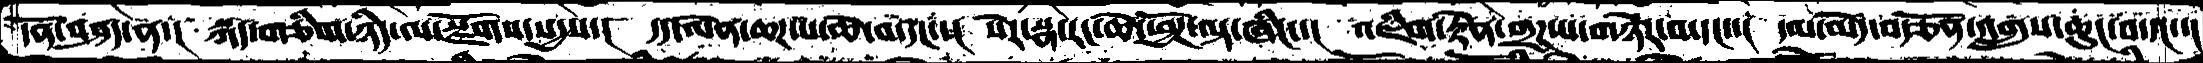དོན་བཤད་ན་།  སྐད་གཅིག་ཉིད་ལ་སྫོགས་སདྱས་།  དད་ལེན་ཆཌ་པ་ཆེ་བ་དང་་།  སེར་སྣ་རང་ཆེ་ཕྱོཌ་ལྟ་ཞིང་་།  འཇིག་རྟེན་གྲཌ་པ་གཉེར་བ་དང་་།  དམ་མེད་བརྩོན་འགྲུས་ཆུང་བ་དང་་།
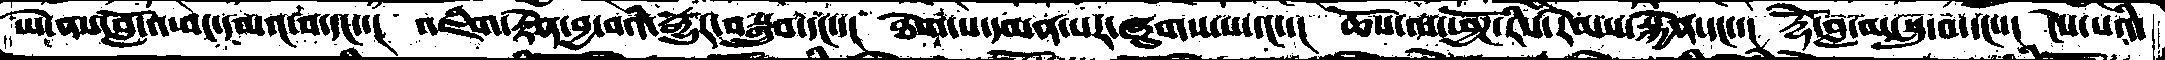ཡེ་ནས་བློ་འཕང་དམའ་བ་དང་་།  འཇིག་རྟེན་བྱ་བའི་རྒྱུར་བསྒྲུབ་དང་་།  ཐེག་པ་དམན་པར་ཞུགས་པ་དང་་།  ཆོས་ལ་ཕྱོཌ་རིས་རེམས་སྐྱེན་དང་་།  རྡོེ་བླ་མ་སླུ་བ་དང་་།  ངེས་པའི་
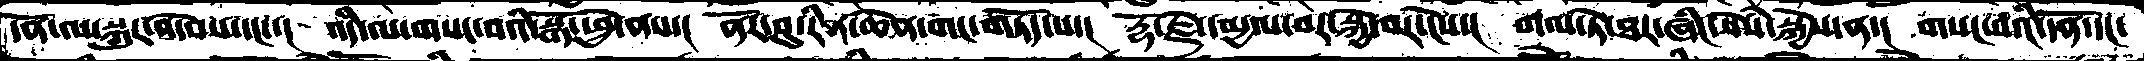དོན་ལ་སྐུར་འདེབས་དང་་།  འདི་ལ་གསང་བའི་སྒོ་ཕྱེ་ནས་།  ནོར་བུ་རིན་ཆེན་གང་གཏོད་པ་།  རྡོ་རྗེ་དམྱལ་བར་སྐྱེ་བར་ངེས་།  གལ་ཏེ་ཐར་ཞིང་སེཾས་སྐྱེས་ན་།  གསང་བའི་དོན་དང་
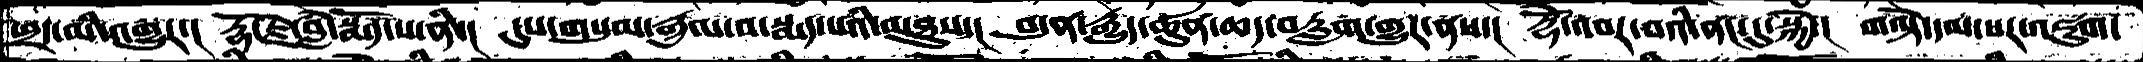ཕྲད་མི་འགྱུར་།  རྡོ་རྗེ་བླཾ་སྨོད་པ་ནི་།  དུས་གསུམ་རྒྱལ་བ་སྨད་པའི་མཐུས་།  བདུན་རྒྱུད་ཚུན་ཆད་བརླག་གྱུར་ནས་།  རྡོེ་འབར་བའི་ནང་དུ་སྐྱེ་།  གལྟེ་དམ་པར་འཇུག་
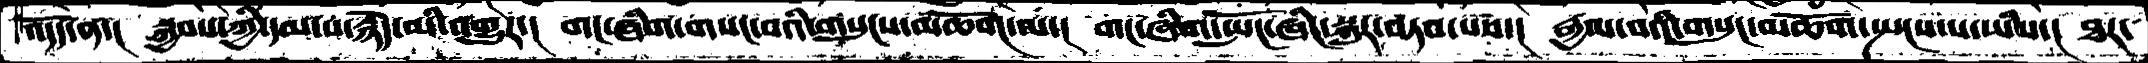འདོད་ན་།  སྐྱབས་ཀྱི་དམ་པ་རྙེད་མི་འགྱུར་།  གང་ཞིག་གསང་བའི་གསུངས་མཆོག་ལ་།  གང་ཞིག་སྤོང་ཞིང་སྐུར་བཏབ་པས་།  རྒྱལ་བའི་གསུང་མཆོག་སྤངས་པ་ཡིས་།  ཐར་
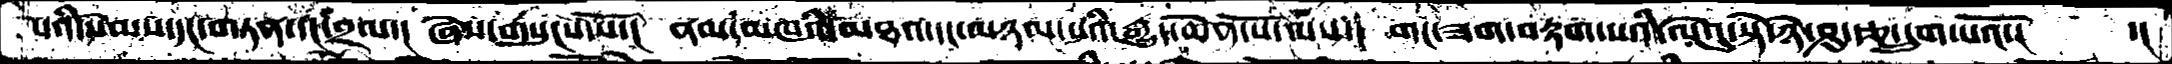པའི་སེམས་དང་གཏན་དང་བྲལ་།  ཞེས་གསུངས་སོ་།  ནམ་མཁའི་མཐའ་དང་མཉམ་པའི་རྒྱུད་ཆེན་པོ་ལས་།  གང་ཟག་བརྟག་པའི་ལེའུ་སྟེ་ཉེ་ཤུ་རྩ་དྲུག་པའོ་།   ་།
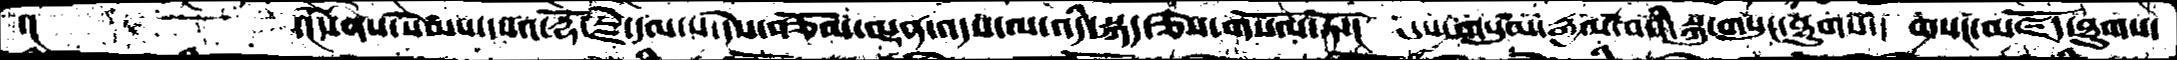་།          ་།དེ་ནས་སེམས་དཔའ་རྡོ་རྗེ་དམ་པ་དེས་བཅོམ་ལྡན་འདས་ལ་འདི་སྐད་ཅེས་གསོལ་ཏོ་། དུས་གསུམ་རྒྱལ་བའི་སྐུ་གསུང་ཐུགས་། གསང་མཛོད་ཐུགས་
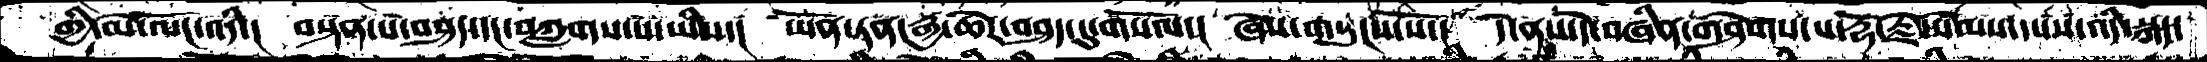གྱི་མེ་ལོང་འདི་།  བསྟན་པ་བཤད་དང་བཀླགས་པ་ཡིས་།  ཡོན་ཏན་རྒྱ་ཆེར་བཤད་དུ་གསོལ་།  ཞེས་གསུངས་སོ་།  དེ་ནས་དེ་བཞིན་གཤེགས་པ་རྡོ་རྗེ་སེམས་དཔས་འདི་སྐད་
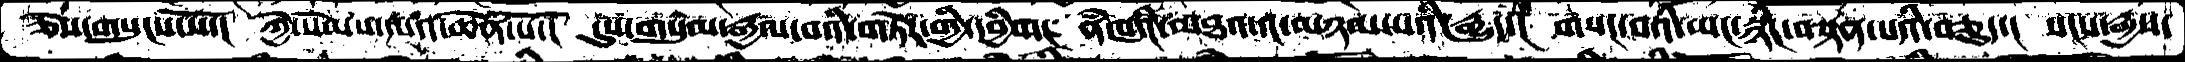ཅེས་གསུངས་སོ་།   ཀྱེ་སེམས་དཔའ་ཆེན་པོ་།  དུས་གསུམ་རྒྱལ་བའི་གཏེར་གྱི་དབྱིག།  ནཾཁའི་མཐའ་དང་མཉམ་པའི་རྒྱུད་།  གསང་བའི་ཡང་སྙིང་བསྟན་པའི་བཅུད་།  སངས་རྒྱས་
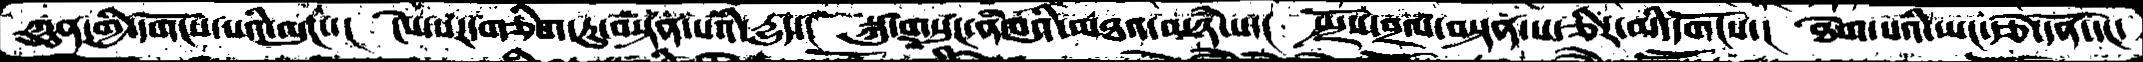ཀུན་གྱི་དགོངས་པའི་ལུང་་།  ངེས་པར་གཅིག་ཏུ་བསྟན་པའི་དྱུད་།  སྐུ་གསུང་ནམཁའི་མཐའ་མཉཾ་པ་།   སྤྲོས་བྲལ་བསྟན་པ་ཅིར་མི་དགོངས་།  ཐེག་པའི་ཡང་རྩེ་དོན་དང་
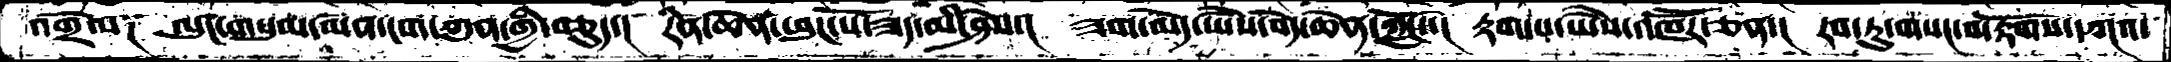འགྲེལ༑   ལུང་གསུམ་མན་ངག་ཀུན་གྱི་བཅུད་།  རིན་ཆེན་ཕུང་པོ་ཟད་མི་ཤེས་།  ཟག་མེད་ཡཻས་བདེ་ཆེན་ཀློང་་།  རྟག་པ་ཡཻས་འཁཽར་ཅན་།  རབ་ཏུ་གསང་བ་རྟོགས་དཀའ་
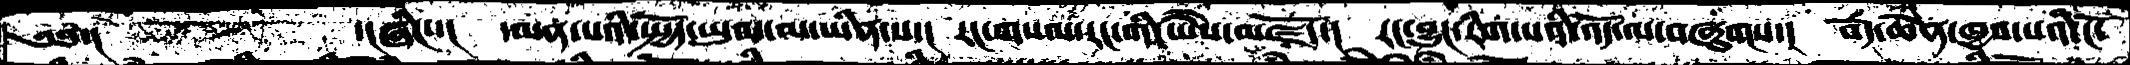༄༅་།                ་།ཞིང་་།  དམན་པའི་སྤྱོད་ཡུལ་མ་ཡིན་པ་།  རང་གསལ་རང་གི་ཡཻས་མཛོད་།  རང་བྱུང་རིག་པའི་འོད་ལ་བཞུགས་།  བདེ་ཆེན་ཁྱབ་པའི་ངོ་
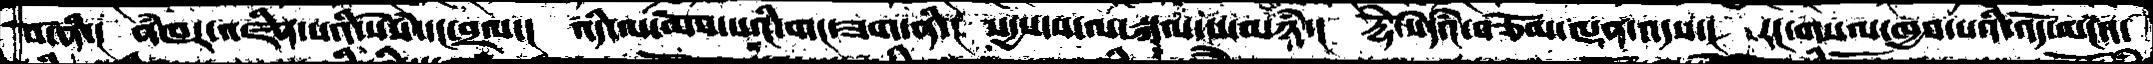བོ་ནི་།   ནཾཁར་འཛིན་པའི་སེཾས་དང་བྲལ་།   འདི་ལ་མོས་པའི་གང་ཟག་ནི་།  སདྱས་ས་ལ་སྐལ་པ་མཉཾ་།  རྡོ་རྗེ་སེདཾའ་བཅོམ་ལྡན་འདས་།  རང་གསལ་ཁྱབ་པའི་འོད་མངའ་
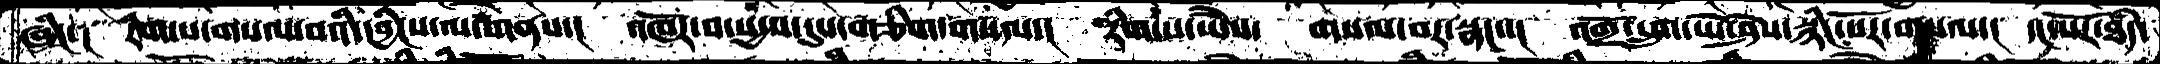ཞིང་།  རིག་པ་གསལ་བའི་དབྱིངས་ལ་གནས་།  འཁོར་བ་སདྱས་དུས་གཅིག་གསལ་།  རིག་པ་ཡཻས་  གསལ་བར་སྣང་་།  འགྲོ་དྲུག་ཡེ་ཤེས་སྙིང་པོར་གསལ་།  དང་པོར་ཐཾད་
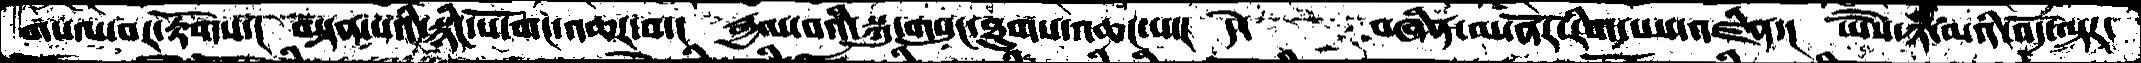གསལ་བར་རྟོགས་།  བསྟན་པའི་སྙིང་པོ་གང་འཆར་བ་།  རྒྱལ་བའི་སྐུ་གསུང་ཐུགས་འཆང་པ་།  དེ་    བཞིན་མ་ནོར་རིག་པས་འཛིན་།  ཡཻས་ཉི་མའི་འོད་ལྟར་
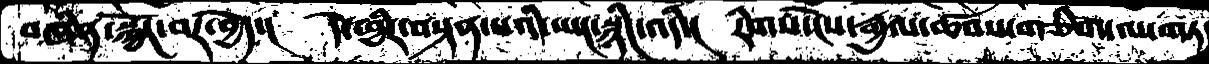བཞིན་སྐྱོང་བར་བྱེད་།  དེ་ཕྱིར་བསྟན་པའི་ཡང་སྙིང་འདི་།  རིགས་ངེས་རྒྱལ་ཚབས་གཅིག་ལ་གཏད
